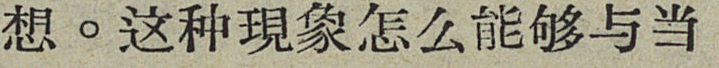想。这种現象怎么能够与当
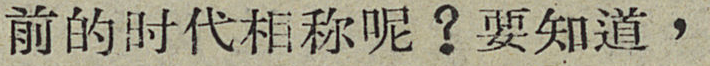前的时代相称呢？要知道，
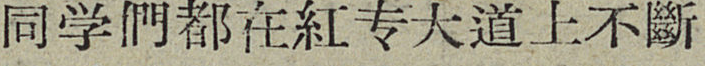同学們都在紅专大道上不斷
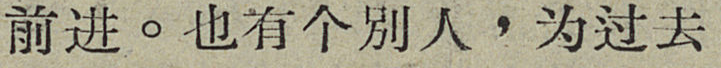前进。也有个别人，为过去
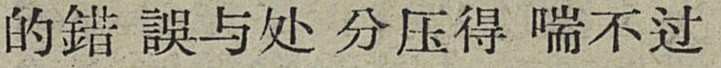的錯誤与处分压得喘不过
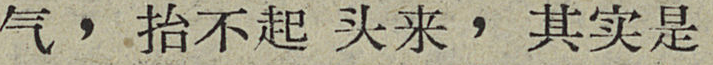气，抬不起头来，其实是
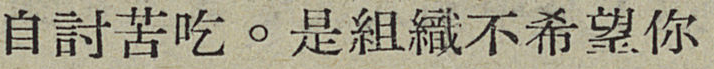自討苦吃。是組織不希望你
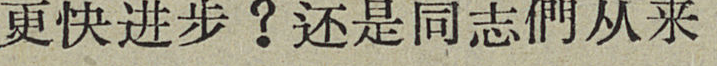更快进步？还是同志們从来
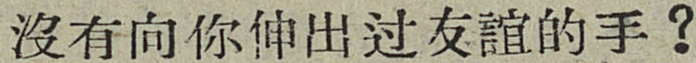沒有向你伸出过友誼的手？
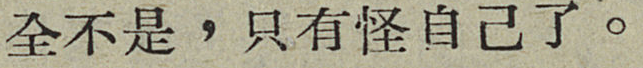全不是，只有怪自己了。
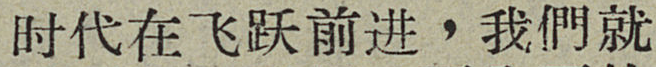时代在飞跃前进，我們就
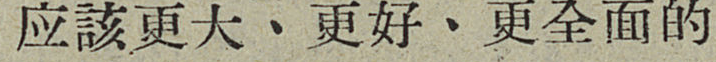应該更大、更好、更全面的
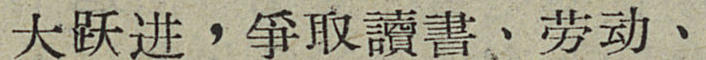大跃进，爭取讀書、劳动、
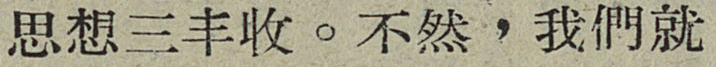思想三丰收。不然，我們就
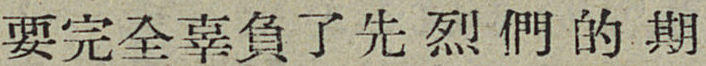要完全辜負了先烈們的期
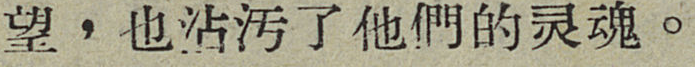望，也沾污了他們的灵魂。
